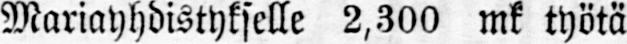Mariayhdistykselle 2,300 mk työtä
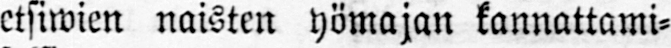etsiwien naisten yömajan kannattami-
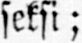seksi;
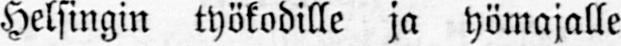Helsingin työkodille ja yömajalle
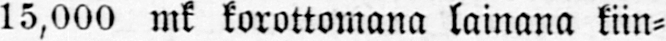15,000 mk korottomana lainana kiin-
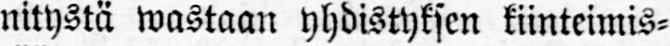nitystä wastaan yhdistyksen kiinteimis-
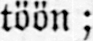töön;
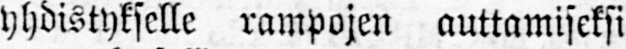yhdistykselle rampojen auttamiseksi
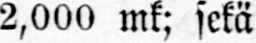2,000 mk; sekä
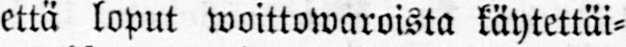että loput woittowaroista käytettäi-
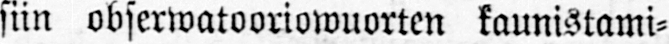siin obserwatooriowuorten kaunistami-
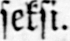seksi.
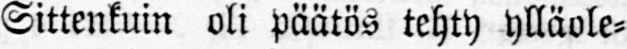Sittenkuin oli päätös tehty ylläole-
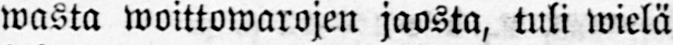wasta woittowarojen jaosta, tuli wielä
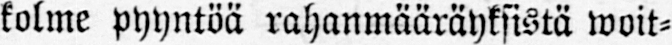kolme pyyntöä rahanmääräyksistä woit-
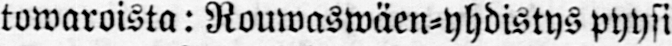towaroista: Rouwaswäen-yhdistys pyysi
